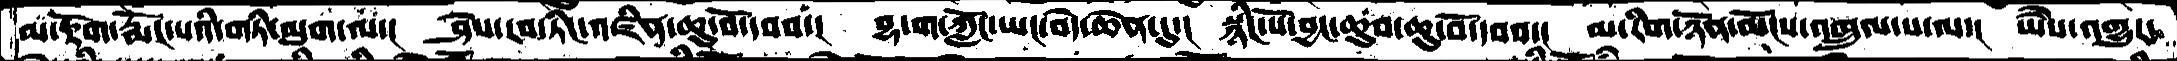མ་རྟོག་རྨོང་པའི་གཏི་མུག་ལ་།  ཤེས་རབ་ཏིང་འཛིན་ཆུ་བོ་དབབ་།  བྷ་ག་ཀློང་ཡང་བདེ་ཆེན་དུ་།  སྙིང་པོ་བྱང་ཆུབ་ཆུ་བོ་དབབ་།  མ་རིག་ཉོན་མོངས་འཁྲུལ་པ་ལ་།།  ཡཻས་འགྱུར་
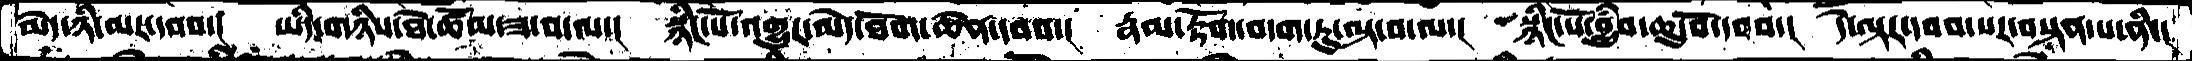མེད་ཉི་མར་དབབ་།  ཡིད་གཉིས་ཐེ་ཚོམ་ཟ་བ་ལ་།  སྙིང་པོ་འགྱུར་མེེད་ཐོག་ཆེན་དབབ་།  རྣམ་རྟོག་བདག་ཏུ་ལྟ་བ་ལ་།  སྙིང་པོ་བྱུཾབ་ཆུ་བོ་དབབ་།  དེ་ལྟར་དབབ་པར་བསྟན་པ་ནི་།
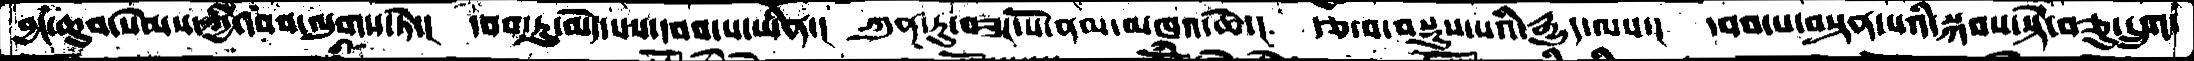བྱང་ཆུབ་སེམས་ཀྱི་དབབ་ལུགས་ཏེ་།  དབབ་ཏུ་མེད་པས་དབབ་པ་ཡིན་།   ཀུན་ཏུ་བཟང་པོ་ནམ་མཁའ་ཆེ་།  རྩ་བ་བསྡུས་པའི་རྒྱུད་ལས་།  དབབ་པ་བསྟན་པའི་སྐབས་སྟེ་བཅུ་དྲུག་
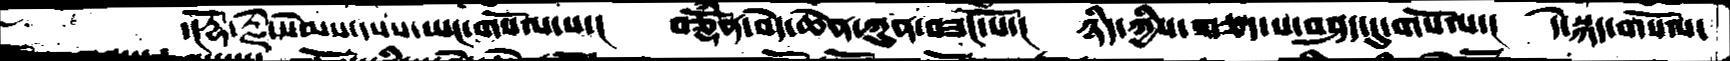་།རྡོ་རྗེ་སེམས་དཔས་ཡང་གསོལ་པ་།  བཅྡོཾན་བདེ་ཆེན་ཀུན་བཟང་པོ་།  ཉིད་ཀྱིས་གཅད་པ་བཤད་དུ་གསོལ་།  དེ་སྐད་གསོལ་
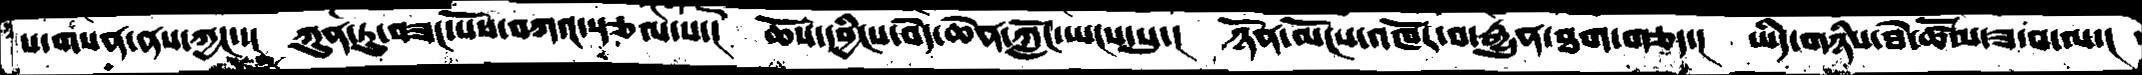པ་གསན་ནས་ཀྱང་་།  ཀུན་ཏུ་བཟང་པོས་བཀའ་སྩལ་པ་།  ཆོས་དབྱིངས་བདེ་ཆེན་ཀློང་ཡངས་སུ་།  ཉོན་མོངས་འཁོར་བ་རྒྱུན་ཐག་གཅད་།  ཡིད་གཉིས་ཐེ་ཚོམ་ཟ་བ་ལ་།
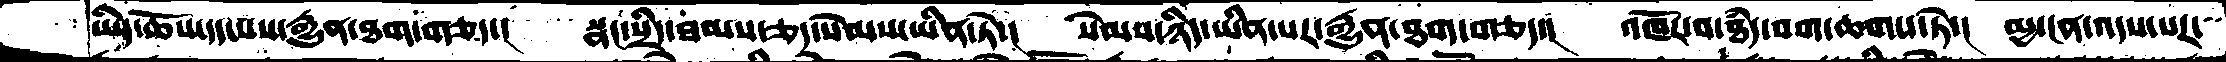ཡིད་ཆོས་དད་པས་རྒྱུན་ཐག་གཅད་།  སྣང་སྲིད་ཐམས་ཅད་སེམས་ཡིན་ཏེ་།  སེམས་ཉིད་ཡིན་པར་རྒྱུན་ཐག་གཅད་།  འཁོར་བ་ཐཾད་བག་ཆགས་ཏེ་།  མྱ་ངན་འདས་པར་
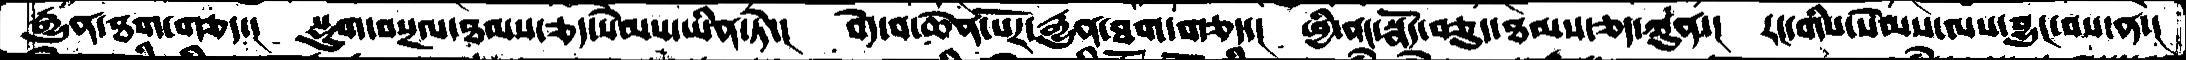རྒྱུན་ཐག་གཅད་།  སྡུག་བསྔལ་ཐམས་ཅད་སེམས་ཡིན་ཏེ་།  བདེ་བ་ཆེན་པོར་རྒྱུན་ཐག་གཅད་།  ཕྱི་ནང་སྣོད་བཅུད་ཐམས་ཅད་ཀུན་།  རང་གིས་སེམས་ལས་བྱུང་བས་ན་།
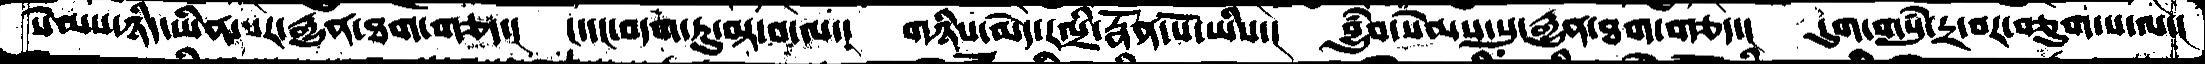སེམས་ཉིད་ཡིན་པར་རྒྱུན་ཐག་གཅད་།  ང་དང་བདག་ཏུ་ལྟ་བ་ལ་།  གཉིས་མེདརལྲི་་རྣོན་པོ་ཡིས་།  བྱུཾབ་སེམས་སུ་རྒྱུན་ཐག་གཅད་།  དུག་གསུཾ་དྲ་བར་བཅུག་པ་ལ་།
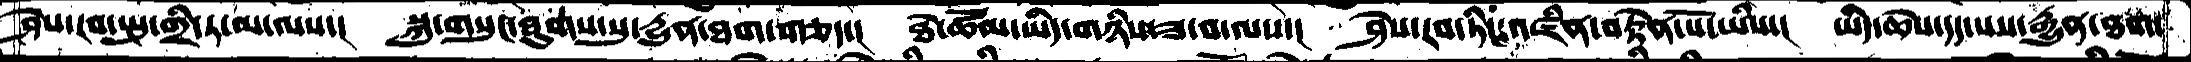ཤེས་རབ་སྤུ་གྲི་ཏ་མ་ལས་།  སྐུ་གསུང་ཐུགས་སུ་དྱུན་ཐག་གཅད་།  ཐེ་ཚོམ་ཡིད་གཉིས་ཟ་བ་ལས་།  ཤེས་རབ་ཏིང་འཛིན་བརྟེན་པོ་ཡིས་།  ཡིད་ཆེས་དད་པས་རྒྱུན་ཐག་
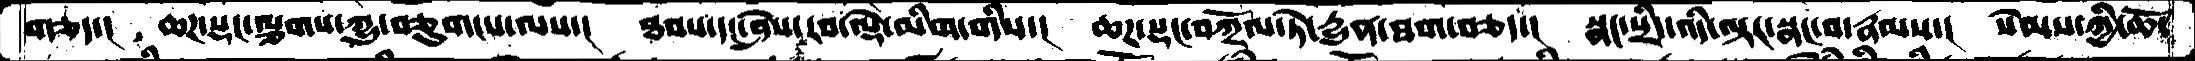གཅད་།  ཆཌ་སྡང་ལྕཌ་ཀྱུ་བཅུག་པ་ལས་།  ཐབས་དང་ཤེས་རབ་ལྡེ་མིག་གིས་།  ཆཌ་སྡང་བཀྲོལ་ཏེ་དྱུན་ཐག་བཅད་།  སྣང་སྲིད་འདི་ལྟར་སྣང་པ་རྣམས་།  སེམས་ཀྱི་ཆོ་
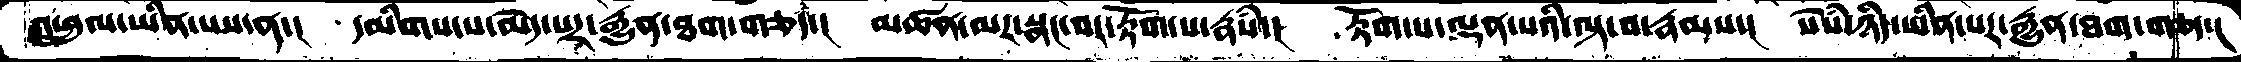འཕྲུལ་ཡིན་པས་ན་།  དམིགས་པ་མེད་པར་རྒྱུན་ཐག་གཅད་།  མཚན་མར་སྣང་བར་རྟོག་པ་རྣཾས་།  རྟོག་པ་ལྡན་པའི་ལྟ་བ་རྣམས་།  སེཾས་ཉིད་ཡིན་པར་རྒྱུན་ཐག་གཅད་།
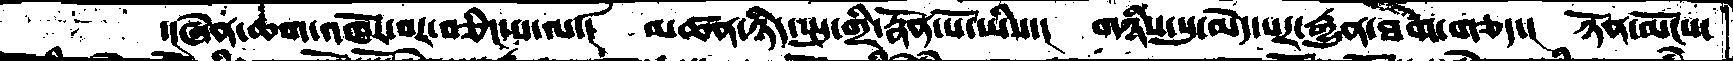་།ཞེན་ཆགས་འཁོར་བར་བཅིང་པ་ལ་།  མཚན་ཉིད་སྤུ་གྲི་རྣོན་པོ་ཡིས་།  གཉིས་སུ་མེད་པར་རྒྱུན་ཐག་གཅད་།  ཉོན་མོངས་
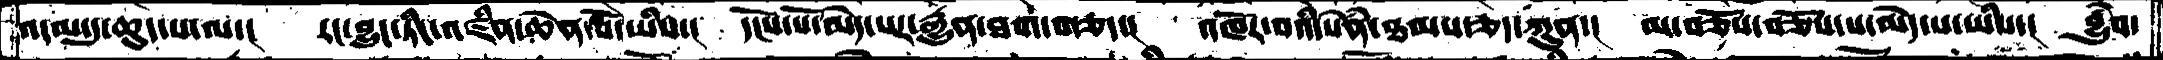འདམ་དུ་ཆུད་པ་ལ་།  རང་བྱུང་ཏིང་འཛིན་ཆེན་པོ་ཡིས་།  དངོས་པོ་མེད་པར་རྒྱུན་ཐག་གཅད་།  འཁོར་བའི་སེནཾ་ཐམས་ཅད་ཀུན་།  མ་བཅོས་བཅོས་པ་མེད་པ་ཡིས་།  བྱུཾབ་
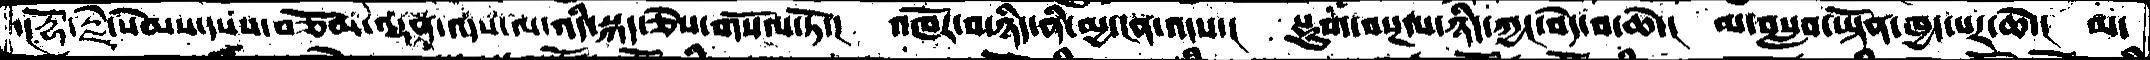་།རྡོ་རྗེ་སེམས་དཔས་བཅོམ་ལྡན་འདས་ལ་འདི་སྐད་ཅེས་གསོལ་ཏོ་།  འཁོར་བ་ཉིད་ནི་མྱ་ངན་འདས་།  སྡུག་བསྔལ་ཉིད་ཀྱང་བདེ་བ་ཆེ་།  མ་བསླབ་ཡྟོན་ཁྱད་པར་ཆེ་།  མ་
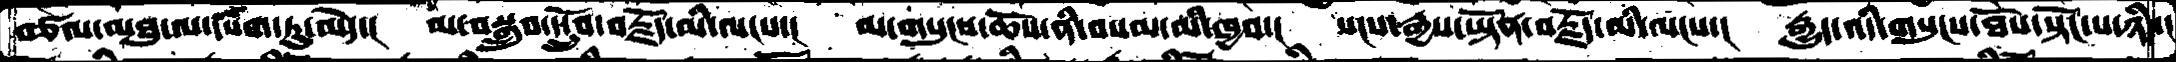བཙལ་མཐུ་ལ་དཔག་ཏུ་མེད་།  མ་བསྒྲུབ་དངྲོུབ་བརྗོད་མི་ལངས་།  མ་གསུངས་ཆོས་ནི་བསམ་མི་ཁྱབ་།  སངས་རྒྱས་ཡྟོན་བརྗོད་མི་ལངས་།  རྒྱུད་འདི་གསུངས་ཐོས་སྟོང་པ་ཉིད་།
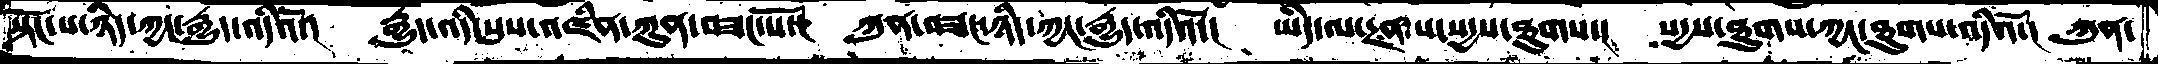སྟོང་པ་ཉིད་ཀྱང་རྒྱུད་འདིའོ་།  རྒྱུད་འདི་སུས་འཛིན་ཀུན་བཟང་པོ་།  ཀུན་བཟང་ཉིད་ཀྱང་རྒྱུད་འདིའོ་།  ཡིད་ལ་དྲན་པ་སདྱས་ཐུགས་།  སདྱས་ཐུགས་ཀྱང་ཐུགས་འདིའོ་།  ཀུན་
